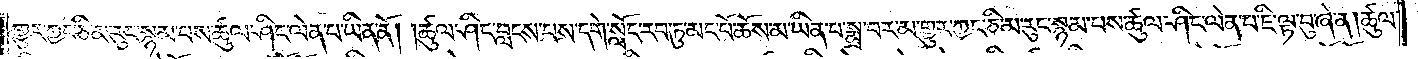གྱུར་ཀྱང་ཅི་མ་རུང་སྙམ་པས་ཚུལ་ཤིང་ལེན་པ་ཡིན་ནོ། །ཚུལ་ཤིང་བླངས་པས་དགེ་སློང་རབ་ཏུ་མང་པོ་ཆོས་མ་ཡིན་པ་སྨྲ་བར་མ་གྱུར་ཀྱང་ཅི་མ་རུང་སྙམ་པས་ཚུལ་ཤིང་ལེན་པ་ཇི་ལྟ་བུ་ཞེ་ན། ཚུལ་
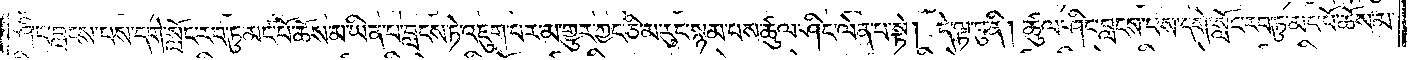ཤིང་བླངས་པས་དགེ་སློང་རབ་ཏུ་མང་པོ་ཆོས་མ་ཡིན་པ་བླངས་ཏེ་འཇུག་པར་མ་གྱུར་ཀྱང་ཅི་མ་རུང་སྙམ་པས་ཚུལ་ཤིང་ལེན་པ་སྟེ། དེ་ལྟ་བུ་ནི། ཚུལ་ཤིང་བླངས་པས་དགེ་སློང་རབ་ཏུ་མང་པོ་ཆོས་མ་
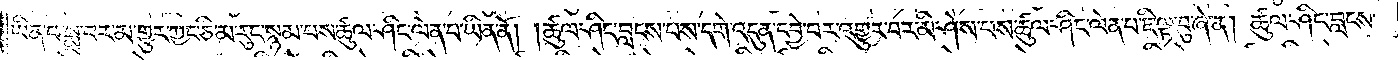ཡིན་པ་སྨྲ་བར་མ་གྱུར་ཀྱང་ཅི་མ་རུང་སྙམ་པས་ཚུལ་ཤིང་ལེན་པ་ཡིན་ནོ། །ཚུལ་ཤིང་བླངས་པས་དགེ་འདུན་དབྱེ་བར་འགྱུར་བར་མི་ཤེས་པས་ཚུལ་ཤིང་ལེན་པ་ཇི་ལྟ་བུ་ཞེ་ན། ཚུལ་ཤིང་བླངས་
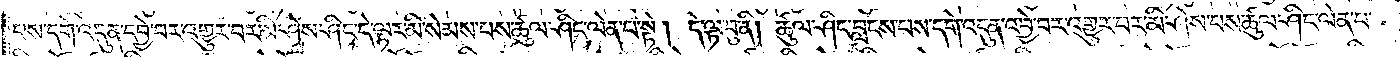པས་དགེ་འདུན་དབྱེ་བར་འགྱུར་བར་མི་ཤེས་ཤིང་དེ་ལྟར་མི་སེམས་པས་ཚུལ་ཤིང་ལེན་པ་སྟེ། དེ་ལྟ་བུ་ནི། ཚུལ་ཤིང་བླངས་པས་དགེ་འདུན་འབྱེ་བར་འགྱུར་བར་མི་ཤེས་པས་ཚུལ་ཤིང་ལེན་པ་
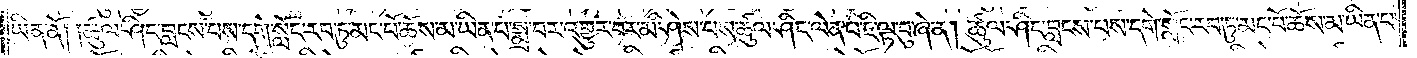ཡིན་ནོ། །ཚུལ་ཤིང་བླངས་པས་དགེ་སློང་རབ་ཏུ་མང་པོ་ཆོས་མ་ཡིན་པ་སྨྲ་བར་འགྱུར་བར་མི་ཤེས་པས་ཚུལ་ཤིང་ལེན་པ་ཇི་ལྟ་བུ་ཞེ་ན། ཚུལ་ཤིང་བླངས་པས་དགེ་སློང་རབ་ཏུ་མང་པོ་ཆོས་མ་ཡིན་པ་
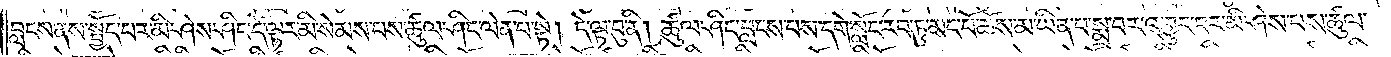བླངས་ནས་སྤྱོད་པར་མི་ཤེས་ཤིང་དེ་ལྟར་མི་སེམས་པས་ཚུལ་ཤིང་ལེན་པ་སྟེ། དེ་ལྟ་བུ་ནི། ཚུལ་ཤིང་བླངས་པས་དགེ་སློང་རབ་ཏུ་མང་པོ་ཆོས་མ་ཡིན་པ་སྨྲ་བར་འགྱུར་བར་མི་ཤེས་པས་ཚུལ་
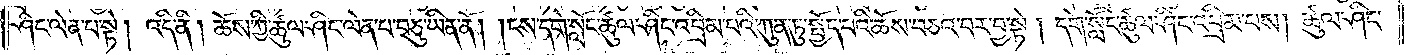ཤིང་ལེན་པ་སྟེ། འདི་ནི། ཆོས་ཀྱི་ཚུལ་ཤིང་ལེན་པ་བཅུ་ཡིན་ནོ། །ངས་དགེ་སློང་ཚུལ་ཤིང་འབྲིམ་པའི་ཀུན་ཏུ་སྤྱོད་པའི་ཆོས་བཅའ་བར་བྱ་སྟེ། དགེ་སློང་ཚུལ་ཤིང་འབྲིམ་པས། ཚུལ་ཤིང་
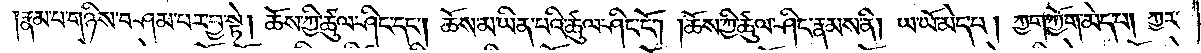རྣམ་པ་གཉིས་བཤམ་པར་བྱ་སྟེ། ཆོས་ཀྱི་ཚུལ་ཤིང་དང༌། ཆོས་མ་ཡིན་པའི་ཚུལ་ཤིང་ངོ༌། །ཆོས་ཀྱི་ཚུལ་ཤིང་རྣམས་ནི། ཡ་ཡོ་མེད་པ། ཀྱག་ཀྱོག་མེད་པ། ཀྱར་
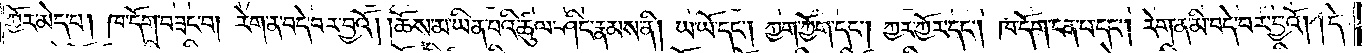ཀྱོར་མེད་པ། ཁ་དོག་བཟང་བ། རེག་ན་བདེ་བར་བྱའོ། །ཆོས་མ་ཡིན་པའི་ཚུལ་ཤིང་རྣམས་ནི། ཡ་ཡོ་དང༌། ཀྱག་ཀྱོག་དང༌། ཀྱར་ཀྱོར་དང༌། ཁ་དོག་ངན་པ་དང༌། རེག་ན་མི་བདེ་བར་བྱའོ། །དེ་
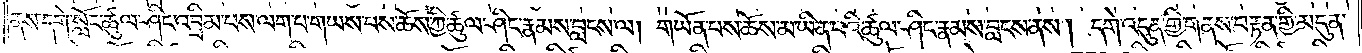ནས་དགེ་སློང་ཚུལ་ཤིང་འབྲིམ་པས་ལག་པ་གཡས་པས་ཆོས་ཀྱི་ཚུལ་ཤིང་རྣམས་བླངས་ལ། གཡོན་པས་ཆོས་མ་ཡིན་པའི་ཚུལ་ཤིང་རྣམས་བླངས་ནས། དགེ་འདུན་གྱི་གནས་བརྟན་གྱི་མདུན་
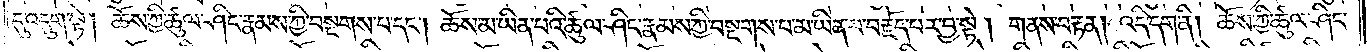དུ་འདུག་སྟེ། ཆོས་ཀྱི་ཚུལ་ཤིང་རྣམས་ཀྱི་བསྔགས་པ་དང༌། ཆོས་མ་ཡིན་པའི་ཚུལ་ཤིང་རྣམས་ཀྱི་བསྔགས་པ་མ་ཡིན་པ་བརྗོད་པར་བྱ་སྟེ། གནས་བརྟན། འདི་དག་ནི། ཆོས་ཀྱི་ཚུལ་ཤིང་
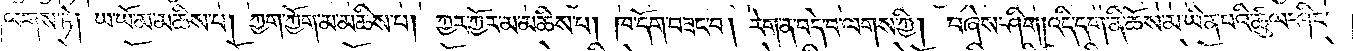ལགས་ཏེ། ཡ་ཡོ་མ་མཆིས་པ། ཀྱག་ཀྱོག་མ་མཆིས་པ། ཀྱར་ཀྱོར་མ་མཆིས་པ། ཁ་དོག་བཟང་བ། རེག་ན་བདེ་བ་ལགས་ཀྱི། བཞེས་ཤིག །འདི་དག་ནི་ཆོས་མ་ཡིན་པའི་ཚུལ་ཤིང་
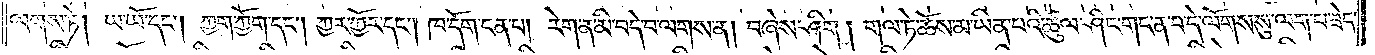ལགས་ཏེ། ཡ་ཡོ་དང༌། ཀྱག་ཀྱོག་དང༌། ཀྱར་ཀྱོར་དང༌། ཁ་དོག་ངན་པ། རེག་ན་མི་བདེ་བ་ལགས་ན། བཞེས་ཤིག །གལ་ཏེ་ཆོས་མ་ཡིན་པའི་ཚུལ་ཤིང་གང་ན་བ་དེ་ལོགས་སུ་ལག་པ་ཟེད་
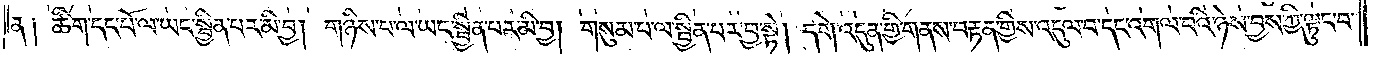ན༑ ཚིག་དང་པོ་ལ་ཡང་སྦྱིན་པར་མི་བྱ། གཉིས་པ་ལ་ཡང་སྦྱིན་པར་མི་བྱ། གསུམ་པ་ལ་སྦྱིན་པར་བྱ་སྟེ། དགེ་འདུན་གྱི་གནས་བརྟན་གྱིས་འདུལ་བ་དང་འགལ་བའི་ཉེས་བྱས་ཀྱི་ལྟུང་བ་
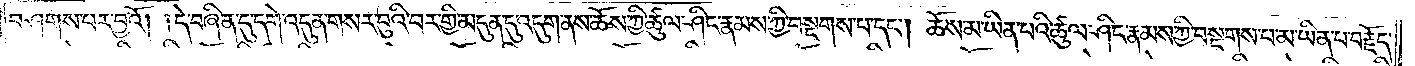བཤགས་པར་བྱའོ། །དེ་བཞིན་དུ་དགེ་འདུན་གསར་བུའི་བར་གྱི་མདུན་དུ་འདུག་ནས་ཆོས་ཀྱི་ཚུལ་ཤིང་རྣམས་ཀྱི་བསྔགས་པ་དང༌། ཆོས་མ་ཡིན་པའི་ཚུལ་ཤིང་རྣམས་ཀྱི་བསྔགས་པ་མ་ཡིན་པ་བརྗོད་
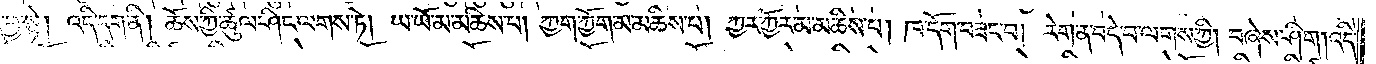པར་བྱ་སྟེ། འདི་དག་ནི། ཆོས་ཀྱི་ཚུལ་ཤིང་ལགས་ཏེ། ཡ་ཡོ་མ་མཆིས་པ། ཀྱག་ཀྱོག་མ་མཆིས་པ། ཀྱར་ཀྱོར་མ་མཆིས་པ། ཁ་དོག་བཟང་བ། རེག་ན་བདེ་བ་ལགས་ཀྱི། བཞེས་ཤིག །འདི་
